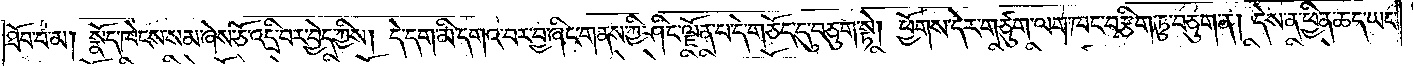ཐོབ་བ་མ། སྣོད་ཁེངས་སམ་ཞེས་ཅོ་འདྲི་བར་བྱེད་ཀྱིས། དེ་དག་མི་དགའ་བར་བྱ་ཞིང་གནས་ཀྱི་ཤིང་ལྗོན་པ་དེ་གཅོད་དུ་བཅུག་སྟེ། ཕྱོགས་དེར་གཙུག་ལག་ཁང་བརྩིག་ཏུ་བཅུག་ན། དེས་ན་ཕྱིན་ཆད་ཡང་
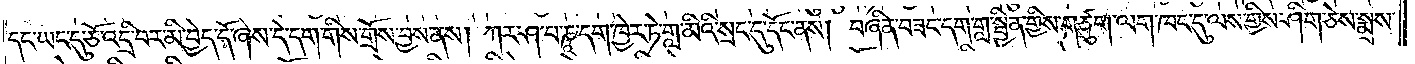དང་ཡང་དུ་ཅོ་འདྲི་བར་མི་བྱེད་དོ་ཞེས་དེ་དག་གིས་གྲོས་བྱས་ནས། ཀར་ཤ་པ་ཎཱ་དག་ཁྱེར་ཏེ་གླ་མིའི་སྲང་དུ་དོང་ནས། བཞིན་བཟང་དག་གླ་སྦྱིན་གྱིས་གཙུག་ལག་ཁང་དུ་ལས་གྱིས་ཤིག་ཅེས་སྨྲས་
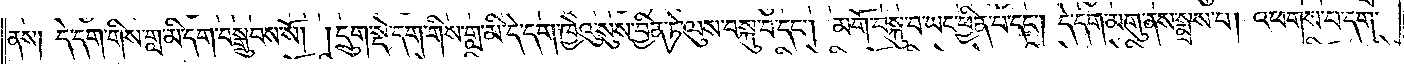ནས། དེ་དག་གིས་གླ་མི་དག་བསྒྲུབས་སོ། །དྲུག་སྡེ་དག་གིས་གླ་མི་དེ་དག་ཁྱེའུ་སུས་བྱིན་ཏེ་ལུས་བསྐུ་བ་དང༌། མགོ་བསྐུ་བ་ཡང་ཕྱིན་པ་དང༌། དེ་དག་མགུ་ནས་སྨྲས་པ། འཕགས་པ་དག་
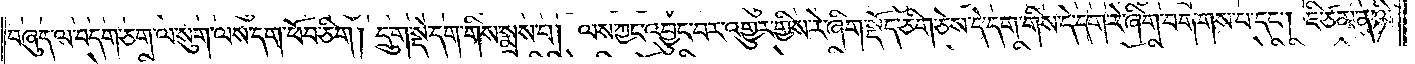བཞུད་ལ་བདག་ཅག་ལ་སུག་ལས་དག་ཕོབ་ཅིག །དྲུག་སྡེ་དག་གིས་སྨྲས་པ། ལས་ཀྱང་འབྱུང་བར་འགྱུར་གྱིས་རེ་ཞིག་སྡོད་ཅིག་ཅེས་དེ་དག་གིས་དེ་དག་རེ་ཞིག་བགགས་པ་དང༌། ཇི་ཙམ་ན་ཉི་
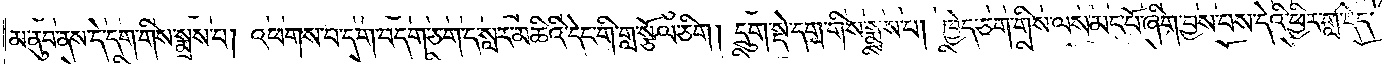མ་ནུབ་ནས་དེ་དག་གིས་སྨྲས་པ། འཕགས་པ་དག་བདག་ཅག་ད་སླར་མཆིའི་དེང་གི་གླ་སྩོལ་ཅིག །དྲུག་སྡེ་དག་གིས་སྨྲས་པ། ཁྱེད་ཅག་གིས་ལས་མང་པོ་ཞིག་བྱས་པས་དེའི་ཕྱིར་གླ་དེད་
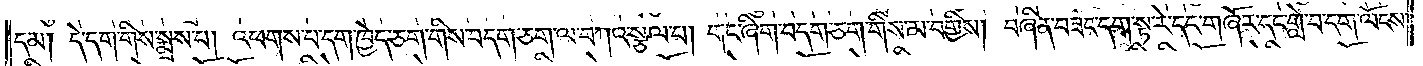དམ། དེ་དག་གིས་སྨྲས་པ། འཕགས་པ་དག་ཁྱེད་ཅག་གིས་བདག་ཅག་ལ་བཀའ་སྩལ་པ། གང་ཞིག་བདག་ཅག་གིས་མ་བགྱིས། བཞིན་བཟང་དག་སྟ་རེ་དང་གཞོར་དང་གླེ་བ་དག་ལོངས་
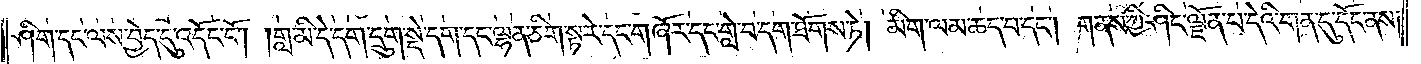ཤིག་དང་ལས་བྱེད་དུ་འདོང་ངོ༌། །གླ་མི་དེ་དག་དྲུག་སྡེ་དག་དང་ལྷན་ཅིག་སྟ་རེ་དང་གཞོར་དང་གླེ་བ་དག་ཐོགས་ཏེ། མིག་ལམ་ཆད་པ་དང༌། གནས་ཀྱི་ཤིང་ལྗོན་པ་དེའི་གན་དུ་དོང་ནས།
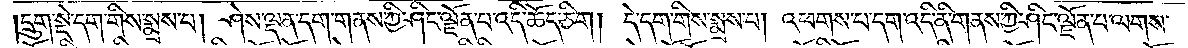།དྲུག་སྡེ་དག་གིས་སྨྲས་པ། ཤེས་ལྡན་དག་གནས་ཀྱི་ཤིང་ལྗོན་པ་འདི་ཆོད་ཅིག །དེ་དག་གིས་སྨྲས་པ། འཕགས་པ་དག་འདི་ནི་གནས་ཀྱི་ཤིང་ལྗོན་པ་ལགས་
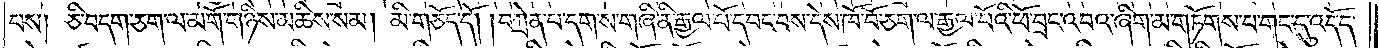པས། ཅི་བདག་ཅག་ལ་མགོ་གཉིས་མཆིས་སམ། མི་གཅོད་དོ། །བཀྲེན་པ་དག་ས་གཞི་ནི་རྒྱལ་པོ་དབང་པས་དེས་ཁོ་བོ་ཅག་ལ་རྒྱལ་པོའི་ཕོ་བྲང་འབའ་ཞིག་མ་གཏོགས་པ་གང་དུ་འདོད་
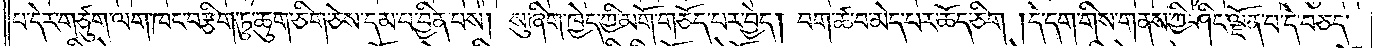པ་དེར་གཙུག་ལག་ཁང་བརྩིག་ཏུ་ཆུག་ཅིག་ཅེས་དམ་པ་བྱིན་པས། སུ་ཞིག་ཁྱེད་ཀྱི་མགོ་གཅོད་པར་བྱེད། བག་ཚ་བ་མེད་པར་ཆོད་ཅིག །དེ་དག་གིས་གནས་ཀྱི་ཤིང་ལྗོན་པ་དེ་བཅད་
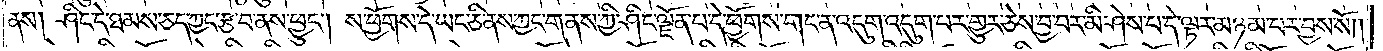ནས། ཤིང་དེ་ཐམས་ཅད་ཀྱང་རྩ་བ་ནས་ཕྱུང༌། ས་ཕྱོགས་དེ་ཡང་ཅི་ནས་ཀྱང་གནས་ཀྱི་ཤིང་ལྗོན་པ་དེ་ཕྱོགས་གང་ན་འདུག་འདུག་པར་གྱུར་ཅེས་བྱ་བར་མི་ཤེས་པ་དེ་ལྟར་མཉམ་པར་བྱས་སོ། །
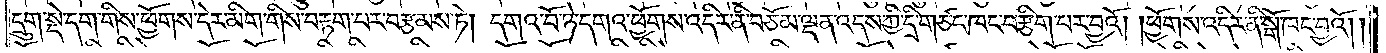དྲུག་སྡེ་དག་གིས་ཕྱོགས་དེར་མིག་གིས་བརྟག་པར་བརྩམས་ཏེ། དགའ་བོ་ཉེ་དགའ་ཕྱོགས་འདིར་ནི་བཅོམ་ལྡན་འདས་ཀྱི་དྲི་གཙང་ཁང་བརྩིག་པར་བྱའོ། །ཕྱོགས་འདིར་ནི་སྒོ་ཁང་བྱའོ། །
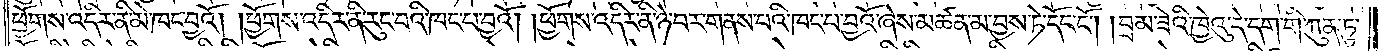ཕྱོགས་འདིར་ནི་མེ་ཁང་བྱའོ། །ཕྱོགས་འདིར་ནི་རུང་བའི་ཁང་པ་བྱའོ། །ཕྱོགས་འདིར་ནི་ཉེ་བར་གནས་པའི་ཁང་པ་བྱའོ་ཞེས་མཚན་མ་བྱས་ཏེ་དོང་ངོ༌། །བྲམ་ཟེའི་ཁྱེའུ་དེ་དག་གི་ཀུན་ཏུ་
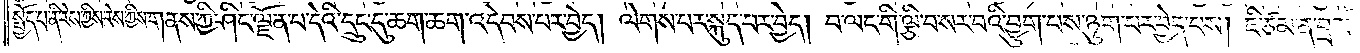སྤྱོད་པ་ནི་རེས་ཀྱིས་གནས་ཀྱི་ཤིང་ལྗོན་པ་དེའི་དྲུང་དུ་ཆག་ཆག་འདེབས་པར་བྱེད། ལེགས་པར་སྐུད་པར་བྱེད། བ་ལང་གི་ལྕི་བ་སར་བའི་བྱུག་པས་ཉུག་པར་བྱེད་པས། ཇི་ཙམ་ན་བྲམ་
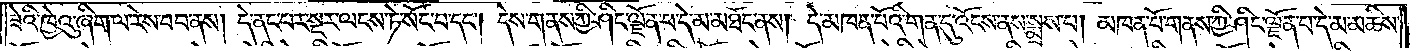ཟེའི་ཁྱེའུ་ཞིག་ལ་རེས་བབ་ནས། དེ་ནང་པར་སྔར་ལངས་ཏེ་སོང་བ་དང༌། དེས་གནས་ཀྱི་ཤིང་ལྗོན་པ་དེ་མ་མཐོང་ནས། དེ་མཁན་པོའི་གན་དུ་འོངས་ནས་སྨྲས་པ། མཁན་པོ་གནས་ཀྱི་ཤིང་ལྗོན་པ་དེ་མ་མཆིས་
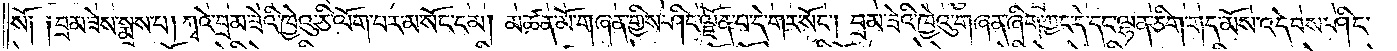སོ༑ ༑བྲམ་ཟེས་སྨྲས་པ། ཀྭའེ་བྲམ་ཟེའི་ཁྱེའུ་ཅི་ལོག་པར་མ་སོང་ངམ། མཚན་མོ་གཞན་གྱིས་ཤིང་ལྗོན་པ་དེ་གར་སོང༌། བྲམ་ཟེའི་ཁྱེའུ་གཞན་ཞིག་ཀྱང་དེ་དང་ལྷན་ཅིག་གད་མོས་འདེབས་ཤིང་
